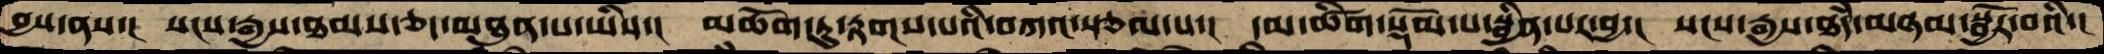བྱས་ནས་།  སངས་རྒྱས་ཐམས་ཅད་མཐུན་པ་ཡིས་།   མཆོག་ཏུ་རྟགས་པའི་བཀའ་སྩལ་པ་།  དམ་ཚིག་སྡོམ་པ་སྦྱིན་པར་བྱ་།  སངས་རྒྱས་ཐཾད་མཉམ་སྦྱོར་བའི་།
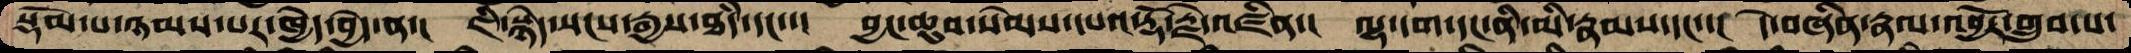སྡོམ་པ་ཉམས་པར་ཁྱེད་བྱེད་ན་།  ཇི་སྙེད་སངས་རྒྱས་ཐཾད་དང་་།  བྱང་ཆུབ་སེམས་དཔའ་རྡོ་རྗེ་འཛིན་།  ལྷ་དག་དང་ནི་མི་རྣམས་དང་་།  དེ་བཞིན་རྣལ་འབྱོར་གྲུབ་པ་
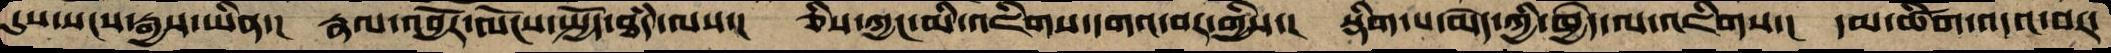དུས་སངས་རྒྱས་ཡིན་།  རྣལ་འབྱོར་ལོངས་སྤྱོད་ཐཾད་ལས་།  ཅིས་ཀྱང་མི་འཇིགས་དགའ་བར་གྱིས་།  སྡིག་པ་མེད་ཀྱི་ཁྱེད་ལ་འཇིགས་།  དམ་ཚིག་འདའ་བར་
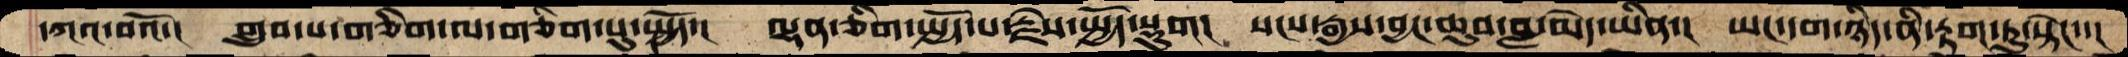དཀའ་བའོ་།  གྲུབ་པ་གཅིག་ལ་གཅིག་པུ་སྤྱོད་།  ལྷན་ཅིག་སྤྱོད་པ་རྗེས་སྤྱོད་སྡུག།  སངས་རྒྱས་བྱང་ཆུབ་བླ་མེད་ཡིན་།  ཡང་དག་ཉིད་ནི་རྟག་ཏུ་སྟེང་་།
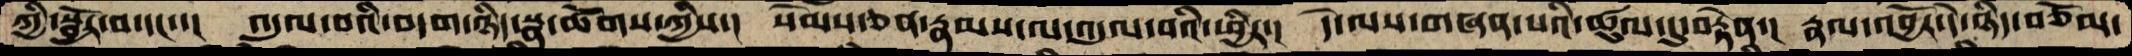ཀྱི་སྦྱོར་བ་དང་་།  འདུལ་བའི་བདག་ཉིད་སྣ་ཚོགས་ཀྱིས་།  སེམས་ཅན་རྣམས་ལ་འདུལ་བའི་ཕྱིར་།  དེ་ལས་གཞན་པའི་ཚུལ་དུ་བརྟེན་།  རྣལ་འབྱོར་དེ་ཉིད་བཅོམ་
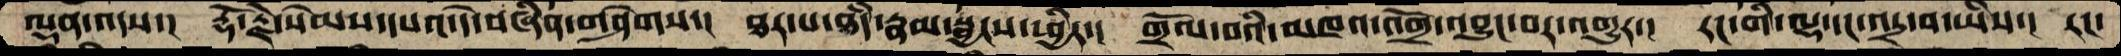ལྡན་འདས་།  རྡོ་རྗེ་སེམས་དཔའ་དེ་བཞིན་གཤེགས་།  ཐར་པ་ཐཾད་རྣམ་སྦྱངས་ཕྱིར་།  གྲོལ་བའི་མཁའ་འགྲོ་འབྱུང་བར་འགྱུར་།  རང་གི་ལྷ་དང་འདྲ་བ་ཡིས་།  རང་
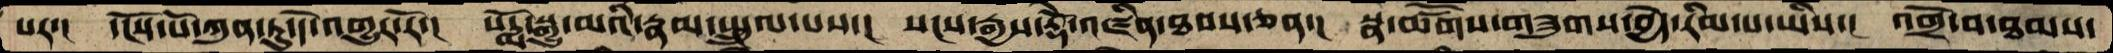པར་།  དངོས་པོ་ཀུན་ཏུ་དེ་འགྱུར་རོ་།  པདྨོ་སྒྱུ་མའི་རྣམ་སྤྲུལ་པས་།  སངས་རྒྱས་རྡོེ་འཛིན་ཐབས་ཅན་།  སྣ་ཚོགས་གཟུགས་བྱེད་རིམ་པ་ཡིས་།  འགྲོ་བ་ཐམས་
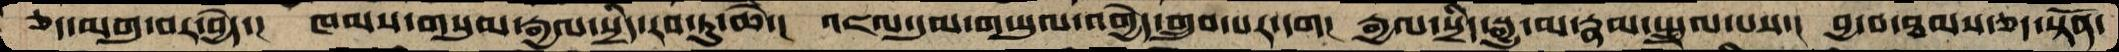ཅད་མགུ་བར་བྱེད་།  ཁམས་གསུམ་རྒྱལ་སྲིད་རབ་ཏུ་ཆེ་།  འཇལ་དུམ་གཡུལ་འགྱེད་གྲུབ་པར་དག།  རྒྱལ་སྲིད་སྒྱུ་མ་རྣམ་སྤྲུལ་པས་།  བྱ་བ་ཐམས་ཅད་སྟོན་
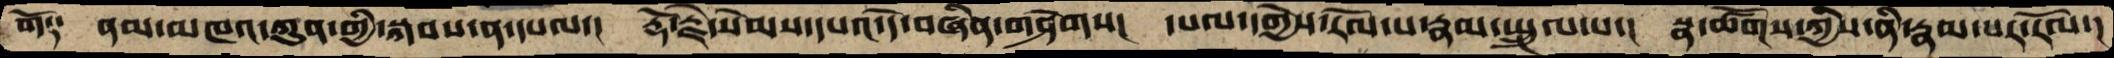གོ༑  ནམ་མཁའ་ཀུན་གྱི་སྐབས་ན་དཔལ་།   རྡོ་རྗེ་སེམས་དཔའ་དེ་བཞིན་གཤེགས་།  དཔལ་དགྱེས་རོལ་པ་རྣམ་སྤྲུལ་པ་།  སྣ་ཚོགས་ཀྱིས་ནི་རྣམ་པར་རོལ་།
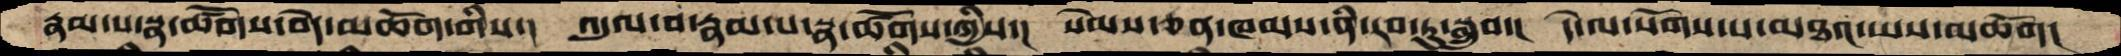རྣམ་པ་སྣ་ཚོགས་བདེ་མཆོག་གིས་།  འདུལ་བ་རྣམ་པ་སྣ་ཚོགས་ཀྱིས་།  སེམས་ཅན་ཁམས་ནི་རབ་ཏུ་སྒྲུབ་།  དེ་ལ་སོགས་པ་མཐའ་ཡས་མཆོག།
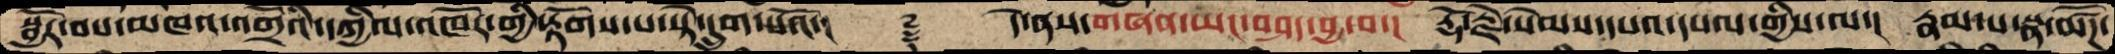སྦྱོར་བས་མཁའ་འགྲོའི་དཀྱིལ་འཁོར་གྱི་རྟོགས་པ་སྟེ་དྲུག་པའོ་།        ࿑   དེ་ནས་གཞན་ཡང་བཤད་བྱ་བ་།  རྡོ་རྗེ་སེམས་དཔའ་དཔལ་གྱིས་ལ་།  རྣམ་པ་སྣ་ཚོཌ་
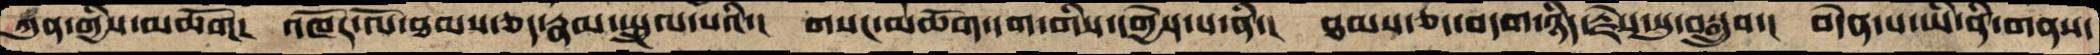ཀུན་གྱིས་མཆོག།  འཁོར་ལོ་ཐམས་ཅད་རྣམ་སྤྲུལ་པའི་།  གསང་མཆོག་དག་གིས་དགྱེས་པ་ནི་།   ཐམས་ཅད་བདག་ཉིད་རྗེས་སུ་བསྒྲུབ་།  བདེན་པ་ཡི་ནི་གནས་
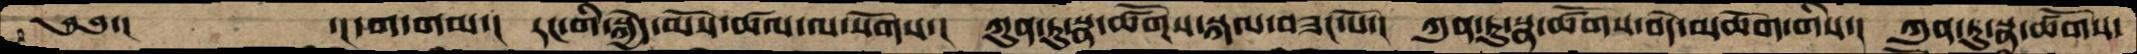༄༅་།       ་།དག་གམ་།   རང་གི་སྐྱེད་མོས་ཚལ་ལ་སོགས་།  ཀུན་ཏུ་སྣ་ཚོགས་སྐལ་བཟང་པོ་།  ཀུན་ཏུ་སྣ་ཚོགས་བདེ་མཆོག་གིས་།  ཀུན་ཏུ་སྣ་ཚོགས་
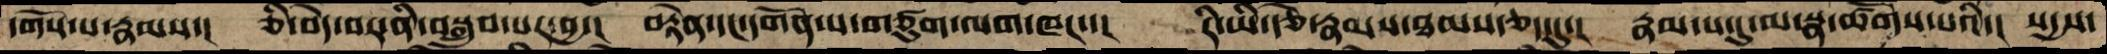དགོས་པ་རྣམས་།  ཅི་བདེ་བར་ནི་བསྒྲུབ་པར་བྱ་།  བརྟེན་དང་དགོན་པ་གཙུག་ལག་ཁང་་།  རི་ཡི་རྩེ་རྣམས་ཐམས་ཅད་དུ་།  རྣམ་པ་དུ་མ་སྣ་ཚོགས་པའི་།  སདྱས་
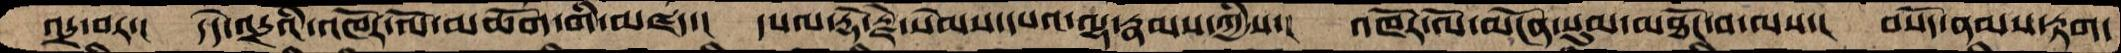འདྲ་བར་།   དདེ་འདྲའི་འཁོར་ལོ་མཆོག་གི་མཛད་།  དཔལ་རྡོ་རྗེ་སེམས་དཔའ་ལྷ་རྣམས་ཀྱིས་།  འཁོར་ལོ་མངོན་སུམ་མཐོང་བ་ལས་།   བསོད་ནམས་རྟག་
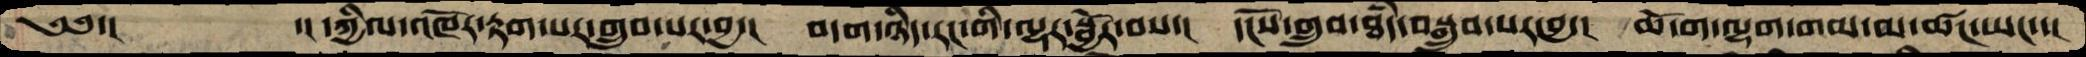༄༅་།        ་།དཀྱིལ་འཁོར་རྟག་པར་གྲུབ་པར་བྱ་།  བདག་ཉིད་རང་གི་ལྷར་སྦྱོར་བས་།  དངོས་གྲུབ་ཐཾད་བསྒྲུབ་པར་བྱ་།  ཆོ་ག་ལྷག་གམ་མ་ཚང་ཡང་་།
